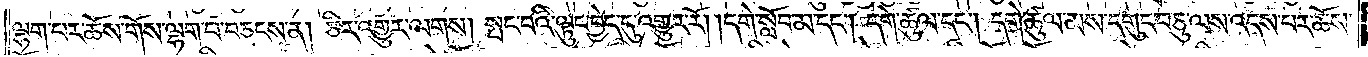ལྷག་པར་ཆོས་གོས་ལྷག་པ་བཅངས་ན། ཅིར་འགྱུར་ལགས། སྤང་བའི་ལྟུང་བྱེད་དུ་འགྱུར་རོ། །དགེ་སློབ་མ་དང༌། དགེ་ཚུལ་དང༌། དགེ་ཚུལ་མས་དགུང་བཅུ་ལས་འདས་པར་ཆོས་
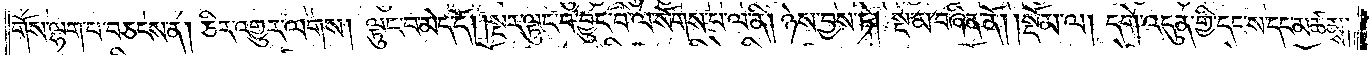གོས་ལྷག་པ་བཅངས་ན། ཅིར་འགྱུར་ལགས། ལྟུང་བ་མེད་དོ། །སྔར་ལྟུང་བ་བྱུང་བ་ལ་སོགས་པ་ལ་ནི། ཉེས་བྱས་ཏེ། སྔ་མ་བཞིན་ནོ།    །སྡོམ་ལ། དགེ་འདུན་གྱི་དང་ས་དང་མཚམས། །
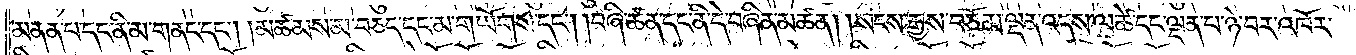མནན་པ་དང་ནི་མ་གནང་དང༌། །མཚམས་མ་བཅད་དང་མ་གཡོགས་དང༌། །བཞི་ཚན་དང་ནི་དེ་བཞིན་མཚན། །སངས་རྒྱས་བཅོམ་ལྡན་འདས་ལ་ཚེ་དང་ལྡན་པ་ཉེ་བར་འཁོར་
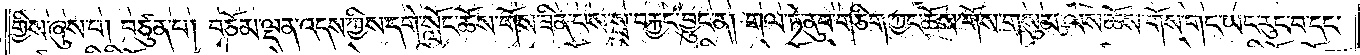གྱིས་ཞུས་པ། བཙུན་པ། བཅོམ་ལྡན་འདས་ཀྱིས་དགེ་སློང་ཆོས་གོས་ཟིན་པས་སྲ་བརྐྱང་བྱུང་ན། གལ་ཏེ་ནུབ་གཅིག་ཀྱང་ཆོས་གོས་གསུམ་ལས་ཆོས་གོས་གང་ཡང་རུང་བ་དང་
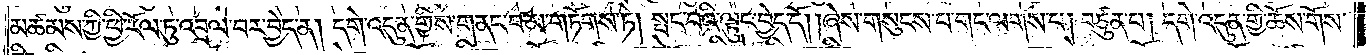མཚམས་ཀྱི་ཕྱི་རོལ་ཏུ་འབྲལ་བར་བྱེད་ན། དགེ་འདུན་གྱིས་གནང་བ་མ་གཏོགས་ཏེ། སྤང་བའི་ལྟུང་བྱེད་དོ། །ཞེས་གསུངས་པ་གང་ལགས་པ། བཙུན་པ། དགེ་འདུན་གྱི་ཆོས་གོས་
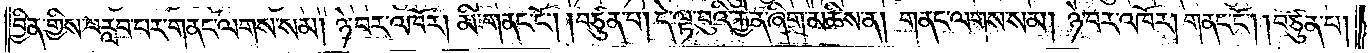བྱིན་གྱིས་བརླབ་པར་གནང་ལགས་སམ། ཉེ་བར་འཁོར། མི་གནང་ངོ༌། །བཙུན་པ། དེ་ལྟ་བུའི་རྐྱེན་ཞིག་མཆིས་ན། གནང་ལགས་སམ། ཉེ་བར་འཁོར། གནང་ངོ༌། །བཙུན་པ།
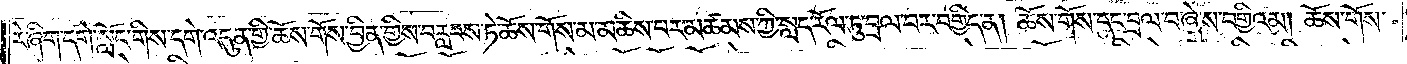རེ་ཞིག་དགེ་སློང་གིས་དགེ་འདུན་གྱི་ཆོས་གོས་བྱིན་གྱིས་བརླབས་ཏེ་ཆོས་གོས་མ་མཆིས་པར་མཚམས་ཀྱི་སླད་རོལ་ཏུ་བྲལ་བར་བགྱིད་ན། ཆོས་གོས་དང་བྲལ་བ་ཞེས་བགྱིའམ། ཆོས་གོས་
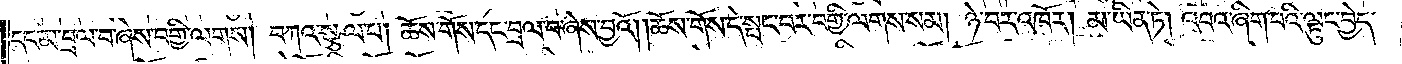དང་མ་བྲལ་བ་ཞེས་བགྱི་ལགས། བཀའ་སྩལ་པ། ཆོས་གོས་དང་བྲལ་བ་ཞེས་བྱའོ། །ཆོས་གོས་ངེ་སྤང་བར་བགྱི་ལགས་སམ། ཉེ་བར་འཁོར། མ་ཡིན་ཏེ། འབའ་ཞིག་པའི་ལྟུང་བྱེད་
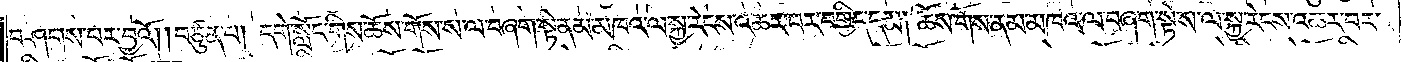བཤགས་པར་བྱའོ། །བཙུན་པ། དགེ་སློང་གིས་ཆོས་གོས་ས་ལ་བཞག་སྟེ་ནམ་མཁའ་ལ་སྐྱ་རེངས་འཆར་བར་བགྱིད་དམ། ཆོས་གོས་ནམ་མཁའ་ལ་བཞག་སྟེ་ས་ལ་སྐྱ་རེངས་འཆར་བར་
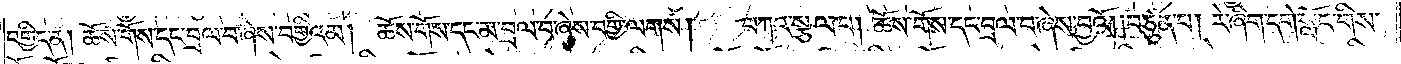བགྱིད་ན། ཆོས་གོས་དང་བྲལ་བ་ཞེས་བགྱིའམ། ཆོས་གོས་དང་མ་བྲལ་བ་ཞེས་བགྱི་ལགས། བཀའ་སྩལ་པ། ཆོས་གོས་དང་བྲལ་བ་ཞེས་བྱའོ། །བཙུན་པ། རེ་ཞིག་དགེ་སློང་གིས་
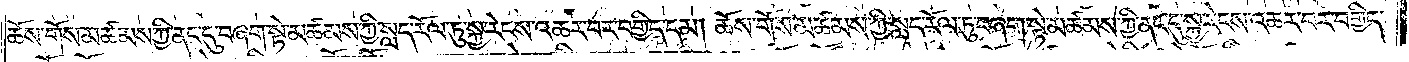ཆོས་གོས་མཚམས་ཀྱི་ནང་དུ་བཞག་སྟེ་མཚམས་ཀྱི་སླད་རོལ་ཏུ་སྐྱ་རེངས་འཆར་བར་བགྱིད་དམ། ཆོས་གོས་མཚམས་ཀྱི་སླད་རོལ་ཏུ་བཞག་སྟེ་མཚམས་ཀྱི་ནང་དུ་སྐྱ་རེངས་འཆར་བར་བགྱིད་
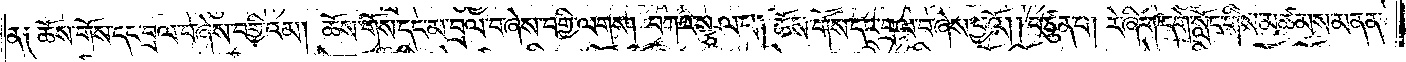ན༑ ཆོས་གོས་དང་བྲལ་བ་ཞེས་བགྱིའམ། ཆོས་གོས་དང་མ་བྲལ་བ་ཞེས་བགྱི་ལགས། བཀའ་སྩལ་པ། ཆོས་གོས་དང་བྲལ་བ་ཞེས་བྱའོ། །བཙུན་པ། རེ་ཞིག་དགེ་སློང་གིས་མཚམས་མནན་
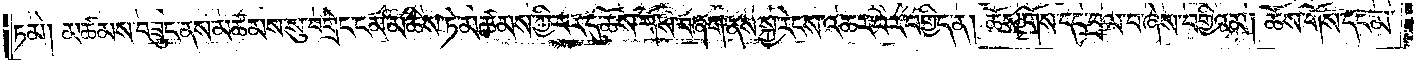ཏམ། མཚམས་བཟུང་ནས་མཚམས་སུ་བགྲེང་ངམ་མཆིས་ཏེ་མཚམས་ཀྱི་བར་དུ་ཆོས་གོས་བཞག་ནས་སྐྱ་རེངས་འཆར་བར་བགྱིད་ན། ཆོག་གོས་དང་བྲལ་བ་ཞེས་བགྱིའམ། ཆོས་གོས་དང་མ་
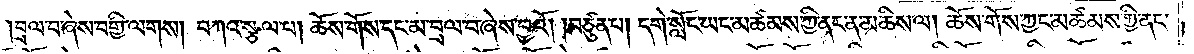།བྲལ་བ་ཞེས་བགྱི་ལགས། བཀའ་སྩལ་པ། ཆོས་གོས་དང་མ་བྲལ་བ་ཞེས་བྱའོ། །བཙུན་པ། དགེ་སློང་ཡང་མཚམས་ཀྱི་ནང་ན་མཆིས་ལ། ཆོས་གོས་ཀྱང་མཚམས་ཀྱི་ནང་
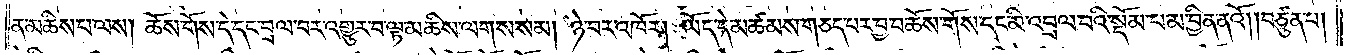ན་མཆིས་པ་ལས། ཆོས་གོས་དེ་དང་བྲལ་བར་འགྱུར་བ་ལྟ་མཆིས་ལགས་སམ། ཉེ་བར་འཁོར། ཡོད་དེ་མཚམས་གཅད་པར་བྱ་བ་ཆོས་གོས་དང་མི་འབྲལ་བའི་སྡོམ་པ་མ་བྱིན་ནའོ། །བཙུན་པ།
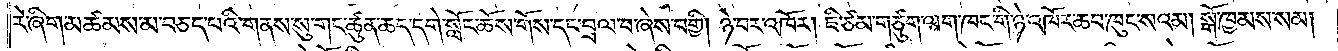རེ་ཞིག་མཚམས་མ་བཅད་པའི་གནས་སུ་གང་ཚུན་ཆད་དགེ་སློང་ཆོས་གོས་དང་བྲལ་བ་ཞེས་བགྱི། ཉེ་བར་འཁོར། ཇི་ཙམ་གཙུག་ལག་ཁང་གི་ཉེ་འཁོར་ཆབ་ཁུང་སའམ། སྒོ་ཁྱམས་སམ།
